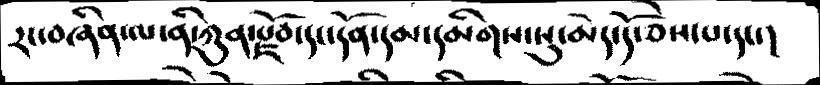རང་བཞིན་ལ་ནི་ཀུན་རྫོབ་དང་དོན་དམ་དམིགས་སུ་མེད་དོ་ཅེས་པ་དང་།
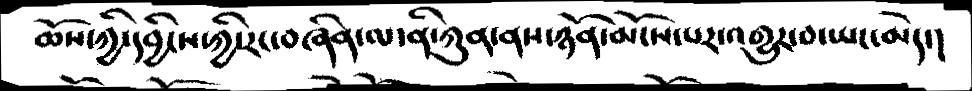ཆོས་ཀྱི་དབྱིངས་ཀྱི་རང་བཞིན་ལ་ནི་ཀུན་ནས་ཉོན་མོངས་པར་འགྱུར་བ་ཡང་མེད་།
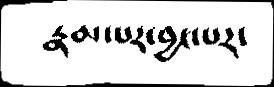རྣམ་པར་བྱང་པར་
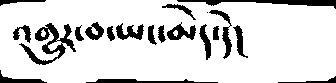འགྱུར་བ་ཡང་མེད་དེ།
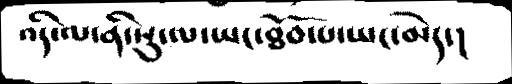འདི་ལ་ནི་སུ་ལ་ཡང་ཐོབ་པ་ཡང་མེད་།
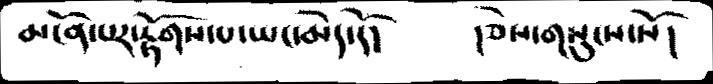མངོན་པར་རྟོགས་པ་ཡང་མེད་དོ།      །ཅེས་གསུངས་སོ།
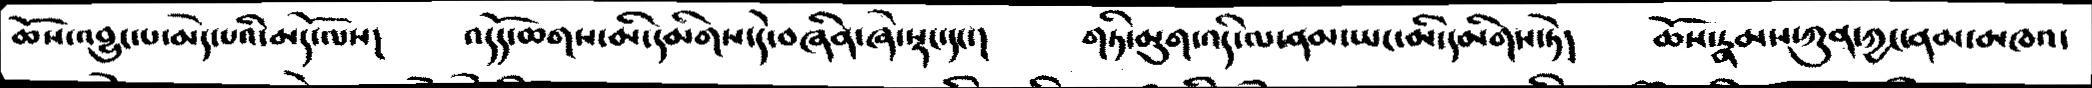ཆོས་འབྱུང་པ་མེད་པའི་མདོ་ལས།   འདོད་ཆགས་མི་དམིགས་དེ་བཞིན་ཞེ་སྡང་དང་།    གཏི་མུག་འདི་ལ་ནམ་ཡང་མི་དམིགས་ཏེ།    ཆོས་རྣམས་ཀུན་ཀྱང་ནམ་མཁའ་
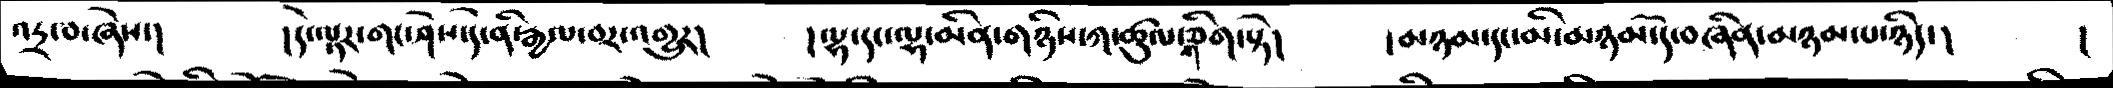འདྲ་བ་ཞེས་།    །དེ་ལྟར་གང་ཤེས་དེ་ནི་རྒྱལ་བར་འགྱུར།    །ལྷ་དང་ལྷ་མིན་གཉིས་ཀ་ཚུལ་གཅིག་སྟེ།    །མཉམ་དང་མི་མཉམ་དེ་བཞིན་མཉམ་པ་ཉིད།     །
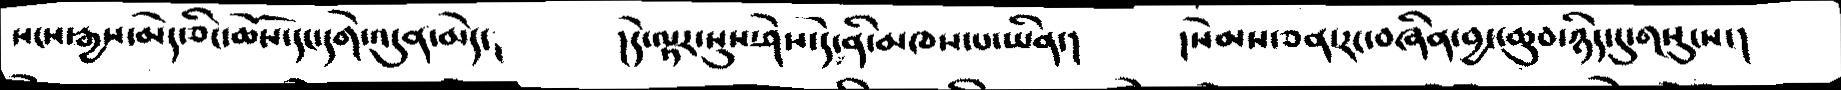སངས་རྒྱས་མེད་ཅིང་ཆོས་དང་དགེ་འདུན་མེད་།     །དེ་ལྟར་སུས་ཤེས་དེ་ནི་མཁས་པ་ཡིན་།     །སེམས་ཅན་རང་བཞིན་བྱང་ཆུབ་ཉིད་དུ་གསུངས་།
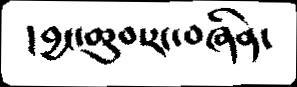བྱང་ཆུབ་རང་བཞིན་
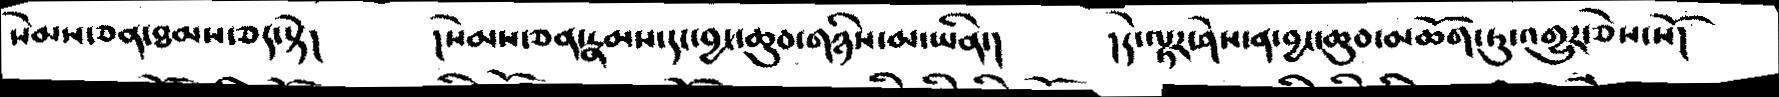སེམས་ཅན་ཐམས་ཅད་སྟེ།   དསེམས་ཅན་རྣམས་དང་བྱང་ཆུབ་གཉིས་མ་ཡིན་།   །དེ་ལྟར་ཤེས་ན་བྱང་ཆུབ་མཆོག་ཏུ་འགྱུར་ཅེས་སོ།
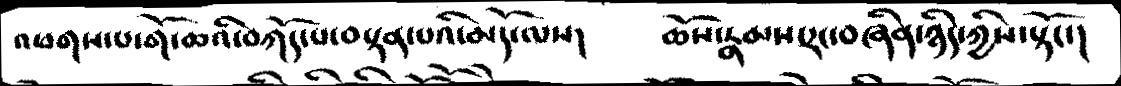འཕགས་པ་གོ་ཆའི་བཀོད་པ་བསྟན་པའི་མདོ་ལས།   ཆོས་རྣམས་རང་བཞིན་ཉིད་ཀྱིས་སྟོང་།
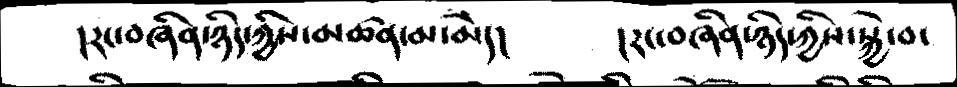།རང་བཞིན་ཉིད་ཀྱིས་མཚན་མ་མེད།   །རང་བཞིན་ཉིད་ཀྱིས་སྐྱེ་བ་
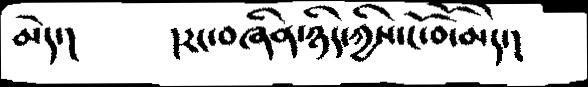མེད་།    །རང་བཞིན་ཉིད་ཀྱིས་ངོ་བོ་མེད་།
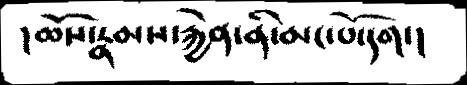།ཆོས་རྣམས་རྐྱེན་ནི་མང་པོ་དག་།
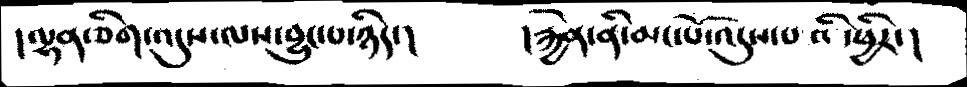།ལྷན་ཅིག་འདུས་ལས་བྱུང་པ་ཉིད་།    །རྐྱེན་ནི་མང་པོ་འདུས་པའི་ཕྱིར་།
